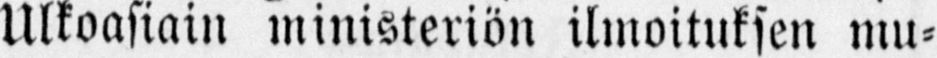Ulkoasiain ministeriön ilmoituksen mu-
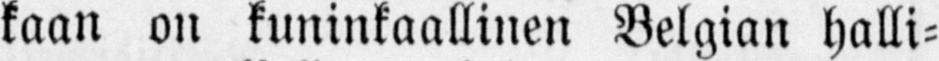kaan on kuninkaallinen Belgian halli-
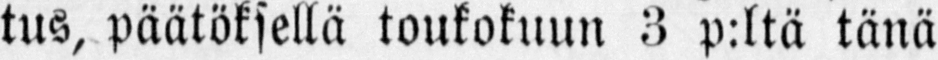tus, päätöksellä toukokuun 3 p:ltä tänä
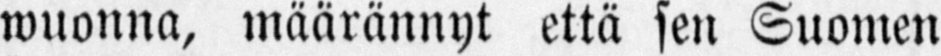wuonna, määrännyt että sen Suomen
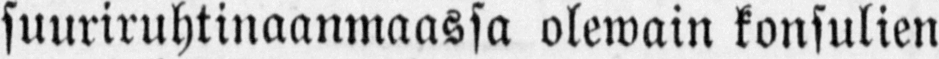suuriruhtinaanmaassa olewain konsulien
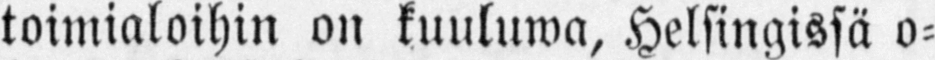toimialoihin on kuuluwa, Helsingissä o-
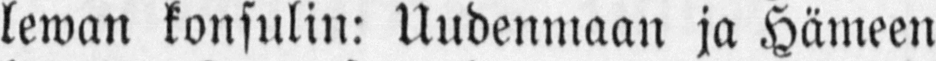lewan konsulin: Uudenmaan ja Hämeen
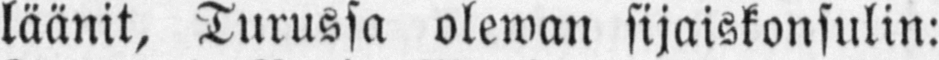läänit, Turussa olewan sijaiskonsulin:
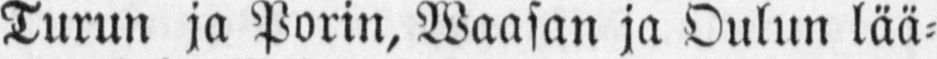Turun ja Porin, Waasan ja Oulun lää-
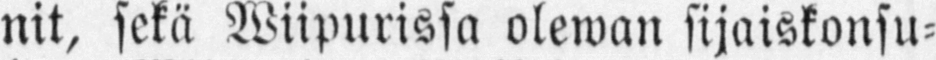nit, sekä Wiipurissa olewan sijaiskonsu-
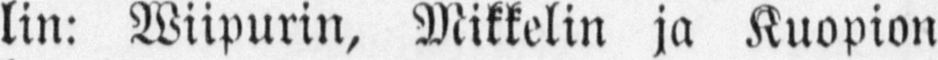lin: Wiipurin, Mikkelin ja Kuopion
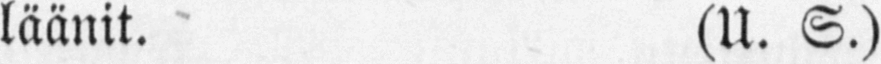läänit. (U- S.)
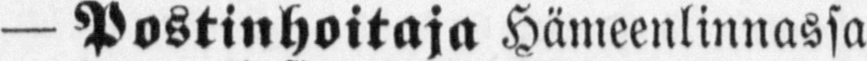— Postinhoitaja Hämeenlinnassa
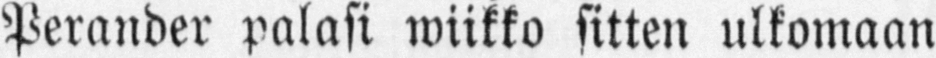Perander palasi wiikko sitten ulkomaan
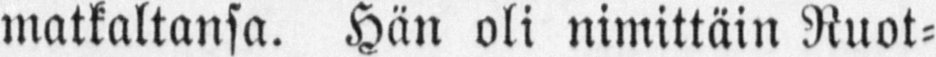matkaltansa. Hän oli nimittäin Ruot-
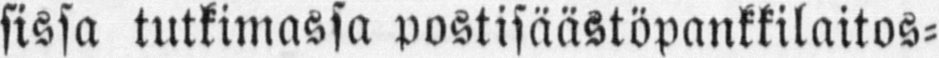sissa tutkimassa postisäästöpankkilaitos-
